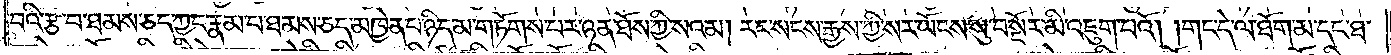བའི་རྩ་བ་ཐམས་ཅད་ཀྱང་རྣམ་པ་ཐམས་ཅད་མཁྱེན་པ་ཉིད་མ་གཏོགས་པར་ཉན་ཐོས་ཀྱི་སའམ། རང་སངས་རྒྱས་ཀྱི་སར་ཡོངས་སུ་བསྔོར་མི་འཇུག་པའོ། །གང་དེ་ལ་ཐོག་མ་དང་ཐ་
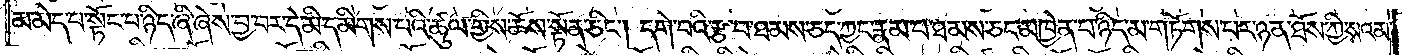མ་མེད་པ་སྟོང་པ་ཉིད་ཞི་ཞེས་བྱ་བར་དེ་མི་དམིགས་པའི་ཚུལ་གྱིས་ཆོས་སྟོན་ཅིང༌། དགེ་བའི་རྩ་བ་ཐམས་ཅད་ཀྱང་རྣམ་པ་ཐམས་ཅད་མཁྱེན་པ་ཉིད་མ་གཏོགས་པར་ཉན་ཐོས་ཀྱི་སའམ།
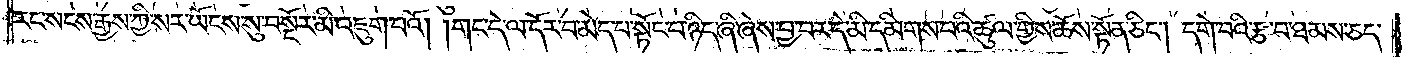རང་སངས་རྒྱས་ཀྱི་སར་ཡོངས་སུ་བསྔོར་མི་འཇུག་པའོ། །གང་དེ་ལ་དོར་བ་མེད་པ་སྟོང་པ་ཉིད་ཞི་ཞེས་བྱ་བར་དེ་མི་དམིགས་པའི་ཚུལ་གྱིས་ཆོས་སྟོན་ཅིང༌། དགེ་བའི་རྩ་བ་ཐམས་ཅད་
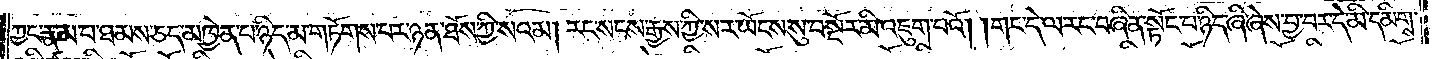ཀྱང་རྣམ་པ་ཐམས་ཅད་མཁྱེན་པ་ཉིད་མ་གཏོགས་པར་ཉན་ཐོས་ཀྱི་སའམ། རང་སངས་རྒྱས་ཀྱི་སར་ཡོངས་སུ་བསྔོར་མི་འཇུག་པའོ། །གང་དེ་ལ་རང་བཞིན་སྟོང་པ་ཉིད་ཞི་ཞེས་བྱ་བར་དེ་མི་དམིགས་
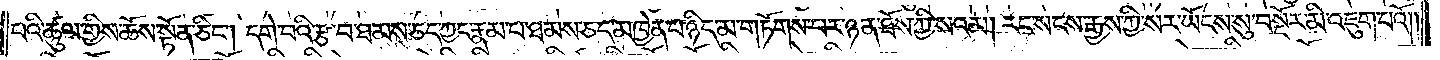པའི་ཚུལ་གྱིས་ཆོས་སྟོན་ཅིང༌། དགེ་བའི་རྩ་བ་ཐམས་ཅད་ཀྱང་རྣམ་པ་ཐམས་ཅད་མཁྱེན་པ་ཉིད་མ་གཏོགས་པར་ཉན་ཐོས་ཀྱི་སའམ། རང་སངས་རྒྱས་ཀྱི་སར་ཡོངས་སུ་བསྔོར་མི་འཇུག་པའོ། །
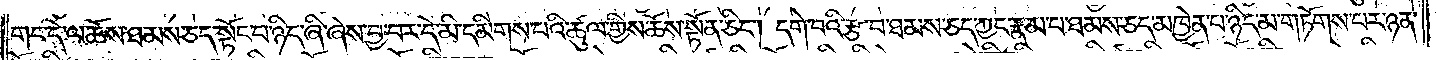གང་དེ་ལ་ཆོས་ཐམས་ཅད་སྟོང་པ་ཉིད་ཞི་ཞེས་བྱ་བར་དེ་མི་དམིགས་པའི་ཚུལ་གྱིས་ཆོས་སྟོན་ཅིང༌། དགེ་བའི་རྩ་བ་ཐམས་ཅད་ཀྱང་རྣམ་པ་ཐམས་ཅད་མཁྱེན་པ་ཉིད་མ་གཏོགས་པར་ཉན་
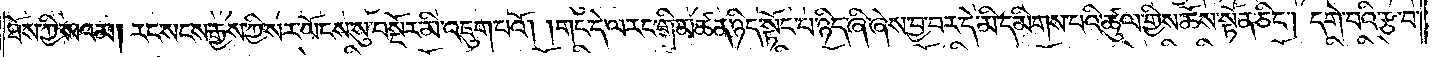ཐོས་ཀྱི་སའམ། རང་སངས་རྒྱས་ཀྱི་སར་ཡོངས་སུ་བསྔོར་མི་འཇུག་པའོ། །གང་དེ་ལ་རང་གི་མཚན་ཉིད་སྟོང་པ་ཉིད་ཞི་ཞེས་བྱ་བར་དེ་མི་དམིགས་པའི་ཚུལ་གྱིས་ཆོས་སྟོན་ཅིང༌། དགེ་བའི་རྩ་བ་
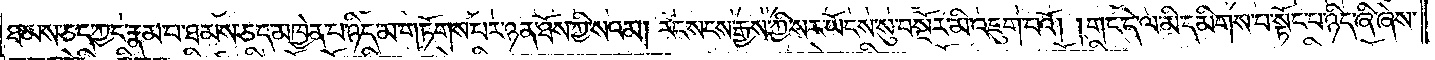ཐམས་ཅད་ཀྱང་རྣམ་པ་ཐམས་ཅད་མཁྱེན་པ་ཉིད་མ་གཏོགས་པར་ཉམ་ཐོས་ཀྱི་སའམ། རང་སངས་རྒྱས་ཀྱི་སར་ཡོངས་སུ་བསྔོར་མི་འཇུག་པའོ། །གང་དེ་ལ་མི་དམིགས་པ་སྟོང་པ་ཉིད་ཞི་ཞེས་
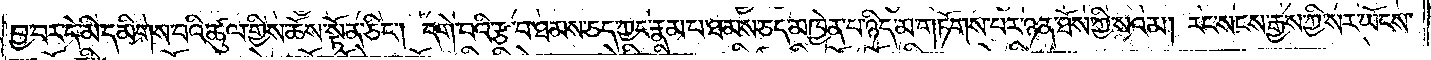བྱ་བར་དེ་མི་དམིགས་པའི་ཚུལ་གྱིས་ཆོས་སྟོན་ཅིང༌། དགེ་བའི་རྩ་བ་ཐམས་ཅད་ཀྱང་རྣམ་པ་ཐམས་ཅད་མཁྱེན་པ་ཉིད་མ་གཏོགས་པར་ཉན་ཐོས་ཀྱི་སའམ། རང་སངས་རྒྱས་ཀྱི་སར་ཡོངས་
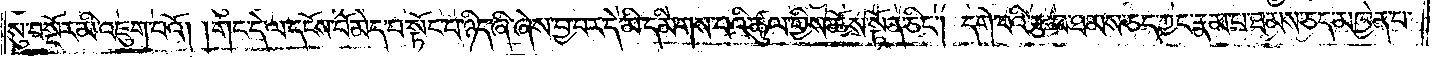སུ་བསྔོར་མི་འཇུག་པའོ། །གང་དེ་ལ་དངོས་པོ་མེད་པ་སྟོང་པ་ཉིད་ཞི་ཞེས་བྱ་བར་དེ་མི་དམིགས་པའི་ཚུལ་གྱིས་ཆོས་སྟོན་ཅིང༌། དགེ་བའི་རྩ་བ་ཐམས་ཅད་ཀྱང་རྣམ་པ་ཐམས་ཅད་མཁྱེན་པ་
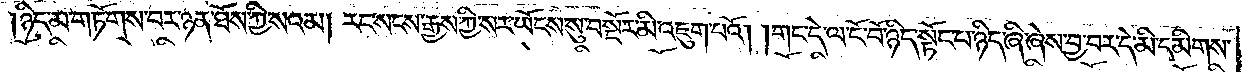ཉིད་མ་གཏོགས་པར་ཉན་ཐོས་ཀྱི་སའམ། རང་སངས་རྒྱས་ཀྱི་སར་ཡོངས་སུ་བསྔོར་མི་འཇུག་པའོ། །གང་དེ་ལ་ངོ་བོ་ཉིད་སྟོང་པ་ཉིད་ཞི་ཞེས་བྱ་བར་དེ་མི་དམིགས་
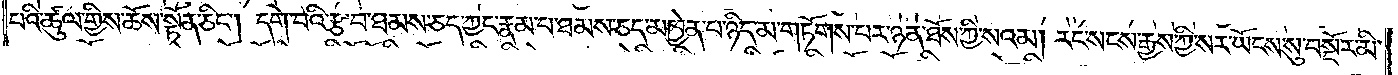པའི་ཚུལ་གྱིས་ཆོས་སྟོན་ཅིང༌། དགེ་བའི་རྩ་བ་ཐམས་ཅད་ཀྱང་རྣམ་པ་ཐམས་ཅད་མཁྱེན་པ་ཉིད་མ་གཏོགས་པར་ཉན་ཐོས་ཀྱི་སའམ། རང་སངས་རྒྱས་ཀྱི་སར་ཡོངས་སུ་བསྔོར་མི་
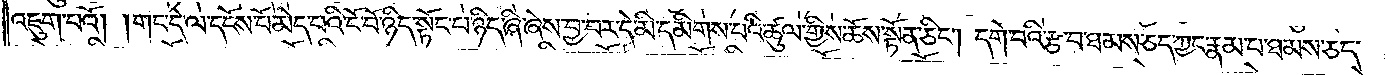འཇུག་པའོ། །གང་དེ་ལ་དངོས་པོ་མེད་པའི་ངོ་བོ་ཉིད་སྟོང་པ་ཉིད་ཞི་ཞེས་བྱ་བར་དེ་མི་དམིགས་པའི་ཚུལ་གྱིས་ཆོས་སྟོན་ཅིང༌། དགེ་བའི་རྩ་བ་ཐམས་ཅད་ཀྱང་རྣམ་པ་ཐམས་ཅད་
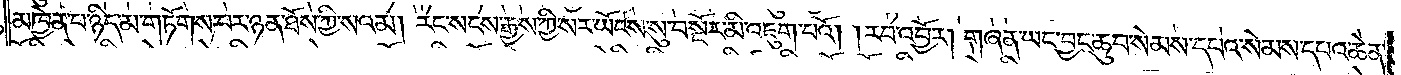མཁྱེན་པ་ཉིད་མ་གཏོགས་པར་ཉན་ཐོས་ཀྱི་སའམ། རང་སངས་རྒྱས་ཀྱི་སར་ཡོངས་སུ་བསྔོར་མི་འཇུག་པའོ། །རབ་འབྱོར། གཞན་ཡང་བྱང་ཆུབ་སེམས་དཔའ་སེམས་དཔའ་ཆེན་
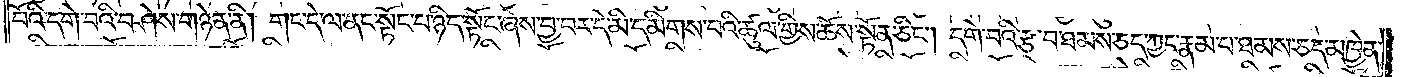པོའི་དགེ་བའི་བཤེས་གཉེན་ནི། གང་དེ་ལ་ནང་སྟོང་པ་ཉིད་སྟོང་ཞེས་བྱ་བར་དེ་མི་དམིགས་པའི་ཚུལ་གྱིས་ཆོས་སྟོན་ཅིང༌། དགེ་བའི་རྩ་བ་ཐམས་ཅད་ཀྱང་རྣམ་པ་ཐམས་ཅད་མཁྱེན་
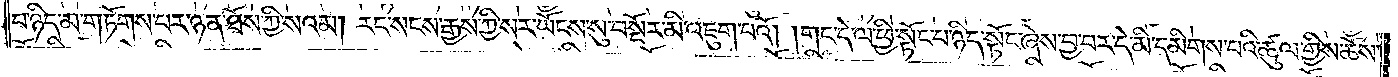པ་ཉིད་མ་གཏོགས་པར་ཉན་ཐོས་ཀྱི་སའམ། རང་སངས་རྒྱས་ཀྱི་སར་ཡོངས་སུ་བསྔོར་མི་འཇུག་པའོ། །གང་དེ་ལ་ཕྱི་སྟོང་པ་ཉིད་སྟོང་ཞེས་བྱ་བར་དེ་མི་དམིགས་པའི་ཚུལ་གྱིས་ཆོས་
